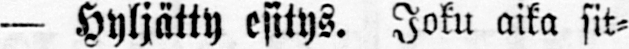— Hyljätty esitys. Joku aika sit-
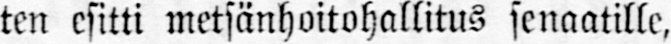ten esitti metsänhoitohallitus senaatille,
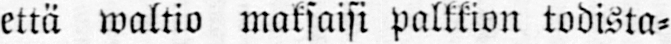että waltio maksaisi palkkion todista-
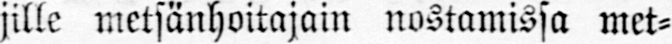jille metsänhoitajain nostamissa met-
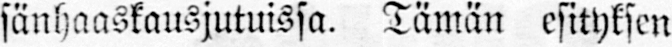sänhaaskausjutuissa. Tämän esityksen
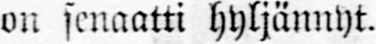on senaatti hyljännyt.
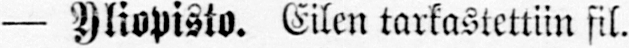— Yliopisto. Eilen tarkastettiin fil.
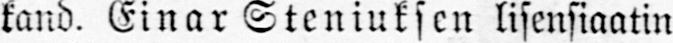kand. Einar Steniuksen lisensiaatin
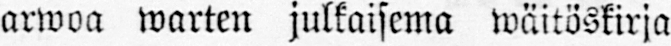arwoa warten julkaisema wäitöskirja
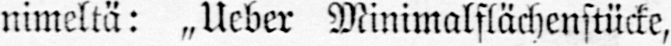nimeltä: „Ueber Minimalflächenstücke,
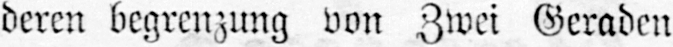deren begrenzung von Zwei Geraden
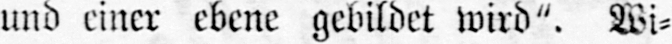und einer ebene gebildet wird". Wi-
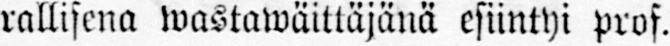rallisena wastawäittäjänä esiintyi prof.
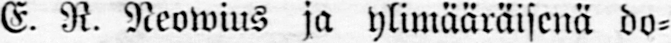E. R. Neowius ja ylimääräisenä do-
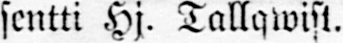sentti Hj. Tallgwist.
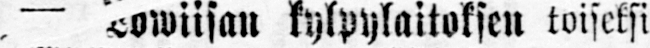— Lowiisan kylpylaitoksen toiseksi
